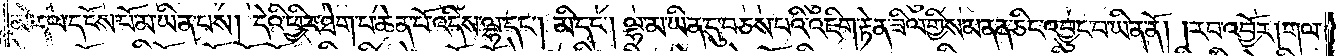མེད་ལ་དངོས་པོ་མ་ཡིན་པས། དེའི་ཕྱིར་ཐེག་པ་ཆེན་པོ་འདིས་ལྷ་དང༌། མི་དང༌། ལྷ་མ་ཡིན་དུ་བཅས་པའི་འཇིག་རྟེན་ཟིལ་གྱིས་མནན་ཅིང་འབྱུང་བ་ཡིན་ནོ། །རབ་འབྱོར། གལ་
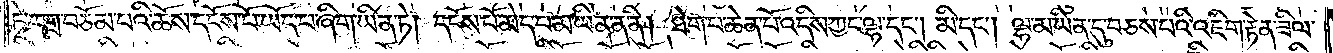ཏེ་དགྲ་བཅོམ་པའི་ཆོས་དངོས་པོ་ཡོད་པ་ཞིག་ཡིན་ཏེ། དངོས་པོ་མེད་པ་མ་ཡིན་ན་ནི། ཐེག་པ་ཆེན་པོ་འདིས་ཀྱང་ལྷ་དང༌། མི་དང༌། ལྷ་མ་ཡིན་དུ་བཅས་པའི་འཇིག་རྟེན་ཟིལ་
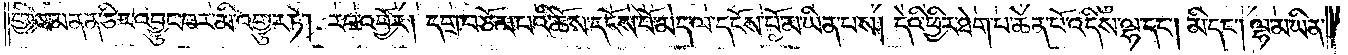གྱིས་མནན་ཅིང་འབྱུང་བར་མི་འགྱུར་ཏེ། རབ་འབྱོར། དགྲ་བཅོམ་པའི་ཆོས་དངོས་པོ་མེད་ལ་དངོས་པོ་མ་ཡིན་པས། དེའི་ཕྱིར་ཐེག་པ་ཆེན་པོ་འདིས་ལྷ་དང༌། མི་དང༌། ལྷ་མ་ཡིན་
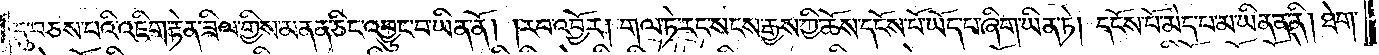དུ་བཅས་པའི་འཇིག་རྟེན་ཟིལ་གྱིས་མནན་ཅིང་འབྱུང་བ་ཡིན་ནོ། །རབ་འབྱོར། གལ་ཏེ་རང་སངས་རྒྱས་ཀྱི་ཆོས་དངོས་པོ་ཡོད་པ་ཞིག་ཡིན་ཏེ། དངོས་པོ་མེད་པ་མ་ཡིན་ན་ནི། ཐེག་
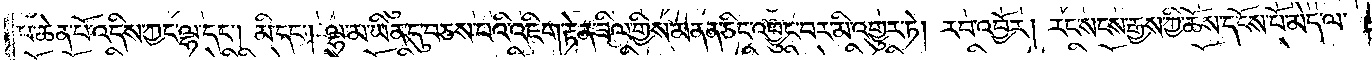པ་ཆེན་པོ་འདིས་ཀྱང་ལྷ་དང༌། མི་དང༌། ལྷ་མ་ཡིན་དུ་བཅས་པའི་འཇིག་རྟེན་ཟིལ་གྱིས་མནན་ཅིང་འབྱུང་བར་མི་འགྱུར་ཏེ། རབ་འབྱོར། རང་སངས་རྒྱས་ཀྱི་ཆོས་དངོས་པོ་མེད་ལ་
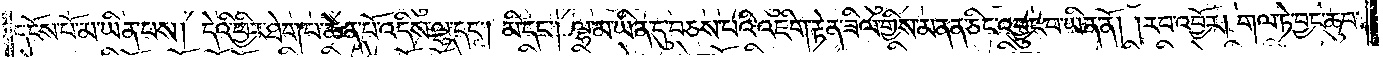དངོས་པོ་མ་ཡིན་པས། དེའི་ཕྱིར་ཐེག་པ་ཆེན་པོ་འདིས་ལྷ་དང༌། མི་དང༌། ལྷ་མ་ཡིན་དུ་བཅས་པའི་འཇིག་རྟེན་ཟིལ་གྱིས་མནན་ཅིང་འབྱུང་བ་ཡིན་ནོ། །རབ་འབྱོར། གལ་ཏེ་བྱང་ཆུབ་
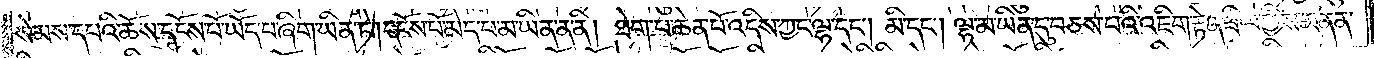སེམས་དཔའི་ཆོས་དངོས་པོ་ཡོད་པ་ཞིག་ཡིན་ཏེ། དངོས་པོ་མེད་པ་མ་ཡིན་ན་ནི། ཐེག་པ་ཆེན་པོ་འདིས་ཀྱང་ལྷ་དང༌། མི་དང༌། ལྷ་མ་ཡིན་དུ་བཅས་པའི་འཇིག་རྟེན་ཟིལ་གྱིས་མནན་
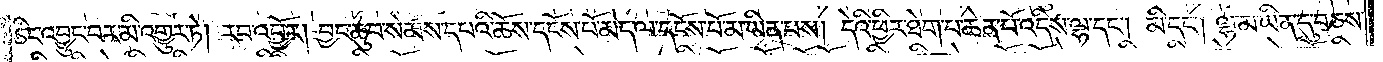ཅིང་འབྱུང་བར་མི་འགྱུར་ཏེ། རབ་འབྱོར། བྱང་ཆུབ་སེམས་དཔའི་ཆོས་དངོས་པོ་མེད་ལ་དངོས་པོ་མ་ཡིན་པས། དེའི་ཕྱིར་ཐེག་པ་ཆེན་པོ་འདིས་ལྷ་དང༌། མི་དང༌། ལྷ་མ་ཡིན་དུ་བཅས་
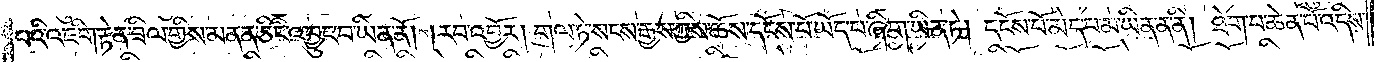པའི་འཇིག་རྟེན་ཟིལ་གྱིས་མནན་ཅིང་འབྱུང་བ་ཡིན་ནོ། །རབ་འབྱོར། གལ་ཏེ་སངས་རྒྱས་ཀྱི་ཆོས་དངོས་པོ་ཡོད་པ་ཞིག་ཡིན་ཏེ། དངོས་པོ་མེད་པ་མ་ཡིན་ན་ནི། ཐེག་པ་ཆན་པོ་འདིས་
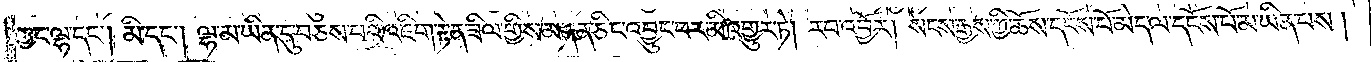ཀྱང་ལྷ་དང༌། མི་དང༌། ལྷ་མ་ཡིན་དུ་བཅས་པའི་འཇིག་རྟེན་ཟིལ་གྱིས་མནན་ཅིང་འབྱུང་བར་མི་འགྱུར་ཏེ། རབ་འབྱོར། སངས་རྒྱས་ཀྱི་ཆོས་དངོས་པོ་མེད་ལ་དངོས་པོ་མ་ཡིན་པས།
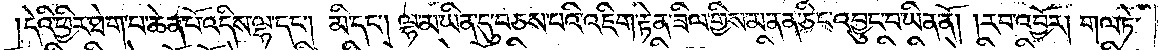དེའི་ཕྱིར་ཐེག་པ་ཆེན་པོ་འདིས་ལྷ་དང༌། མི་དང༌། ལྷ་མ་ཡིན་དུ་བཅས་པའི་འཇིག་རྟེན་ཟིལ་གྱིས་མནན་ཅིང་འབྱུང་བ་ཡིན་ནོ། །རབ་འབྱོར། གལ་ཏེ་
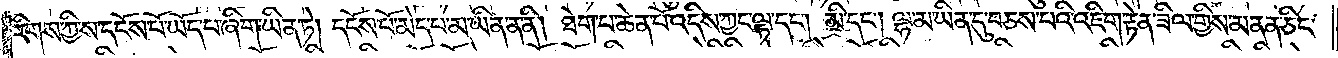རིགས་ཀྱིས་དངོས་པོ་ཡོད་པ་ཞིག་ཡིན་ཏེ། དངོས་པོ་མེད་པ་མ་ཡིན་ན་ནི། ཐེག་པ་ཆེན་པོ་འདིས་ཀྱང་ལྷ་དང༌། མི་དང༌། ལྷ་མ་ཡིན་དུ་བཅས་པའི་འཇིག་རྟེན་ཟིལ་གྱིས་མནན་ཅིང་
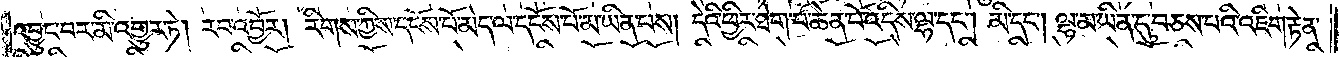འབྱུང་བར་མི་འགྱུར་ཏེ། རབ་འབྱོར། རིགས་ཀྱིས་དངོས་པོ་མེད་ལ་དངོས་པོ་མ་ཡིན་པས། དེའི་ཕྱིར་ཐེག་པ་ཆེན་པོ་འདིས་ལྷ་དང༌། མི་དང༌། ལྷ་མ་ཡིན་དུ་བཅས་པའི་འཇིག་རྟེན་
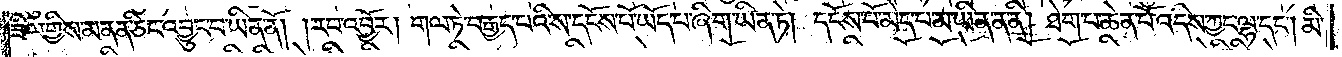ཟིལ་གྱིས་མནན་ཅིང་འབྱུང་བ་ཡིན་ནོ། །རབ་འབྱོར། གལ་ཏེ་བརྒྱད་པའི་ས་དངོས་པོ་ཡོད་པ་ཞིག་ཡིན་ཏེ། དངོས་པོ་མེད་པ་མ་ཡིན་ན་ནི། ཐེག་པ་ཆེན་པོ་འདིས་ཀྱང་ལྷ་དང༌། མི་
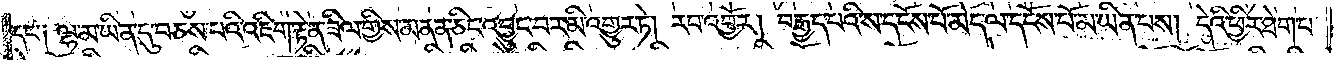དང༌། ལྷ་མ་ཡིན་དུ་བཅས་པའི་འཇིག་རྟེན་ཟིལ་གྱིས་མནན་ཅིང་འབྱུང་བར་མི་འགྱུར་ཏེ། རབ་འབྱོར། བརྒྱད་པའི་ས་དངོས་པོ་མེད་ལ་དངོས་པོ་མ་ཡིན་པས། དེའི་ཕྱིར་ཐེག་པ་
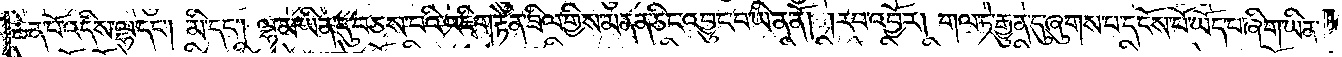ཆེན་པོ་འདིས་ལྷ་དང༌། མི་དང༌། ལྷ་མ་ཡིན་དུ་བཅས་པའི་འཇིག་རྟེན་ཟིལ་གྱིས་མནན་ཅིང་འབྱུང་བ་ཡིན་ནོ། །རབ་འབྱོར། གལ་ཏེ་རྒྱུན་དུ་ཞུགས་པ་དངོས་པོ་ཡོད་པ་ཞིག་ཡིན་
